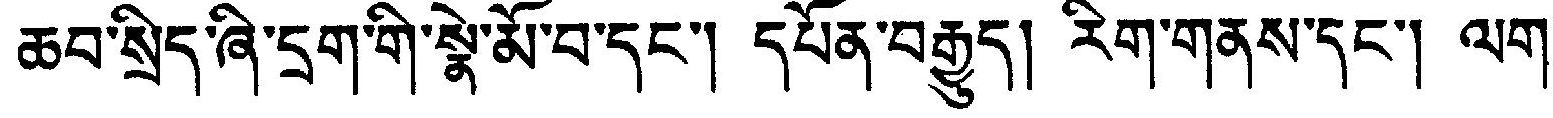ཆབ་སྲིད་ཞི་དྲག་གི་སྣེ་མོ་བ་དང་། དཔོན་བརྒྱུད། རིག་གནས་དང་། ལག་
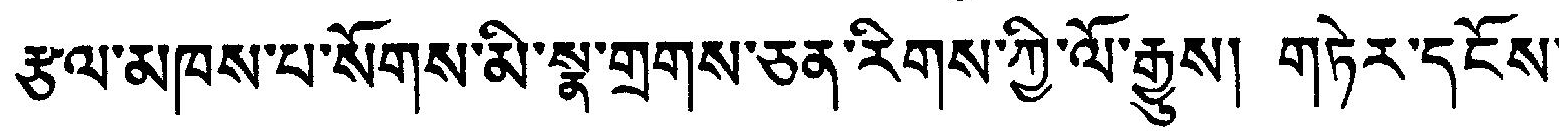རྩལ་མཁས་པ་སོགས་མི་སྣ་གྲགས་ཅན་རིགས་ཀྱི་ལོ་རྒྱུས། གཏེར་དངོས་
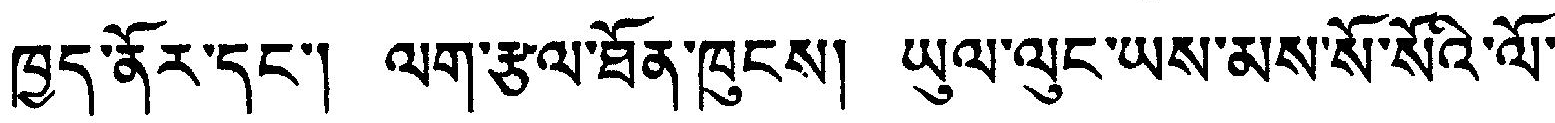ཁྱད་ནོར་དང་། ལག་རྩལ་ཐོན་ཁུངས། ཡུལ་ལུང་ཡས་མས་སོ་སོའི་ལོ་
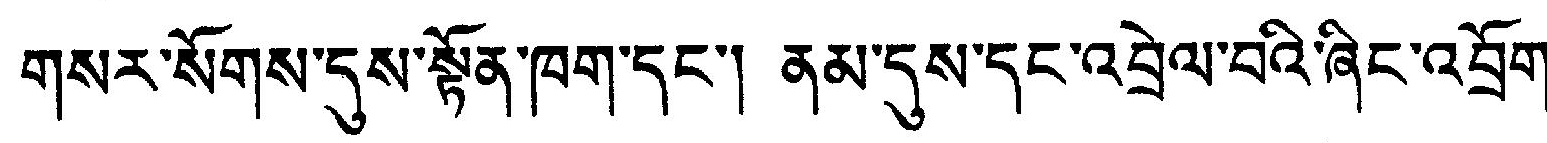གསར་སོགས་དུས་སྟོན་ཁག་དང་། ནམ་དུས་དང་འབྲེལ་བའི་ཞིང་འབྲོག་
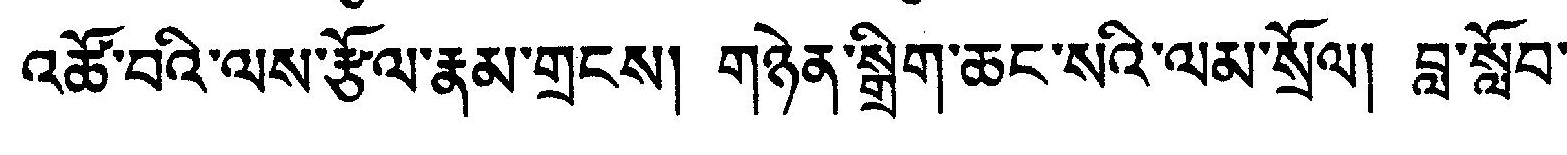འཚོ་བའི་ལས་རྩོལ་རྣམ་གྲངས། གཉེན་སྒྲིག་ཆང་སའི་ལམ་སྲོལ། བླ་སློབ་
